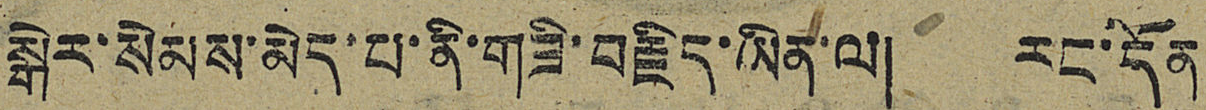སྒེར་སེམས་མེད་པ་ནི་གཟི་བརྗིད་ཡིན་ལ། རང་དོན
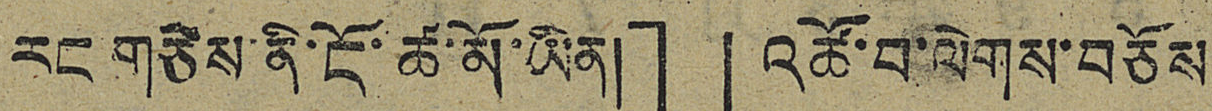རང་གཅེས་ནི་ངོ་ཚ་མོ་ཡིན།」「འཚོ་བ་ལེགས་བཅོས
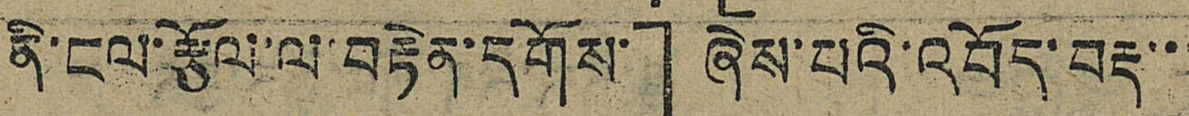ནི་ངལ་རྩོལ་ལ་བརྟེན་དགོས་」ཞེས་པའི་འབོད་བརྡ་་་
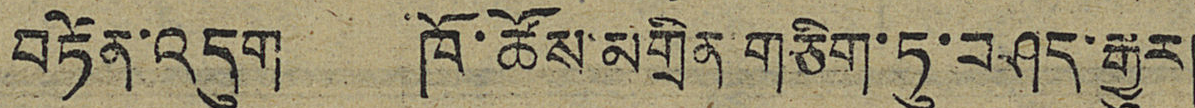བཏོན་འདུག ཁོ་ཚོས་མགྲིན་གཅིག་ཏུ་བཤད་རྒྱུར།
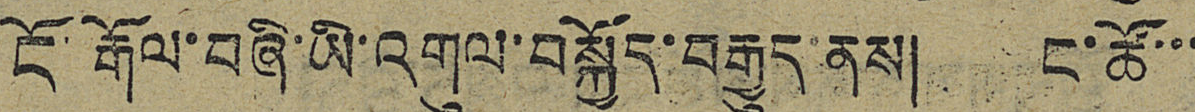ངོ་རྒོལ་བཞི་ཡི་འགུལ་བསྐྱོད་བརྒྱུད་ནས། ང་ཚོ་་་
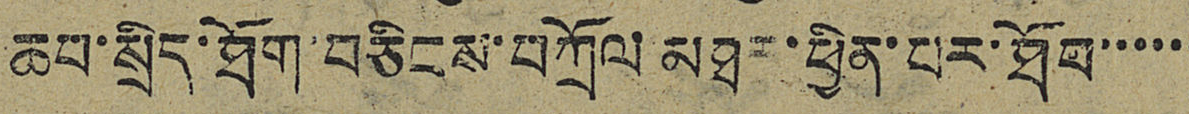ཆབ་སྲིད་ཐོག་བཅིངས་བཀྲོལ་མཐར་ཕྱིན་པར་ཐོབ་་་་་་
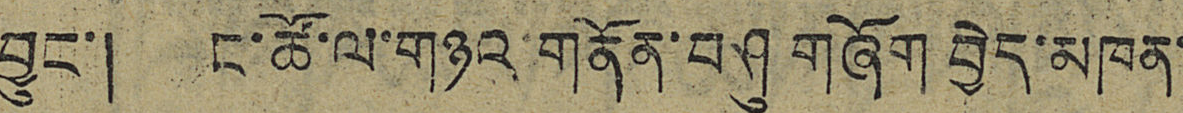བྱུང་། ང་ཚོ་ལ་གཉའ་གནོན་བཤུ གཞོག བྱེད་མཁན་
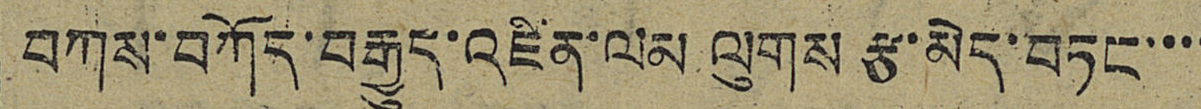བཀས་བཀོད་བརྒྱུད་འཛིན་ལམ ལུགས རྩ་མེད་བཏང་་་་
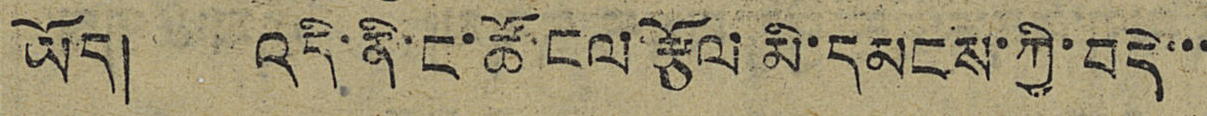ཡོད། འདི་ནི་ང་ཚོ་ངལ་རྩོལ མི་དམངས་ཀྱི་བདེ་་་
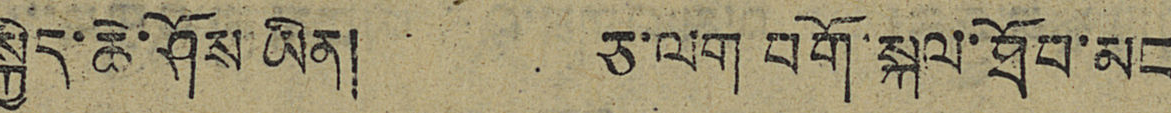སྐྱིད་ཆེ་ཤོས་ཡིན། ཅ་ལག བགོ་སྐལ་ཐོབ་མང
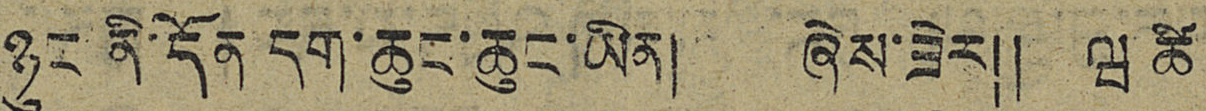ཉུང་ནི་དོན དག་ཆུང་ཆུང་ཡིན། ཞེས་ཟེར༎ ཝ ཚི་
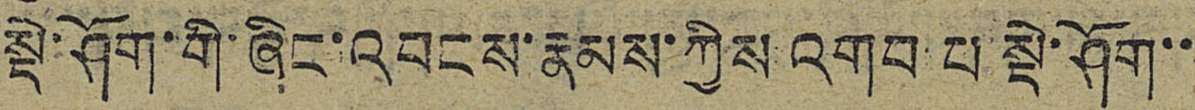སྡེ་ཤོག་གི་ཞིང་འབངས་རྣམས་ཀྱིས འགབ པ སྡེ་ཤོག་་
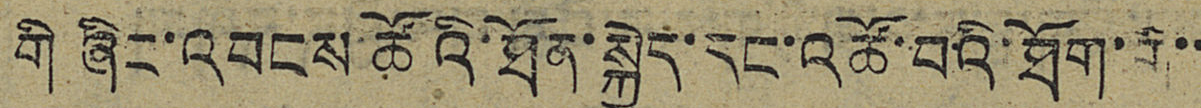གི ཞིང་འབངས་ཚོའི་ཐོན་སྐྱེད་དང་འཚོ་བའི་ཐོག་གི་་
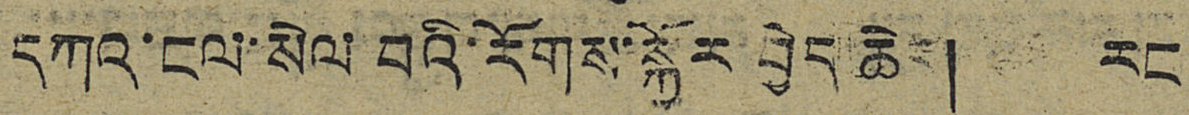དཀའ་ངལ་སེལ བའི་རོགས་སྐྱོར་བྱེད་ཆེར། རང
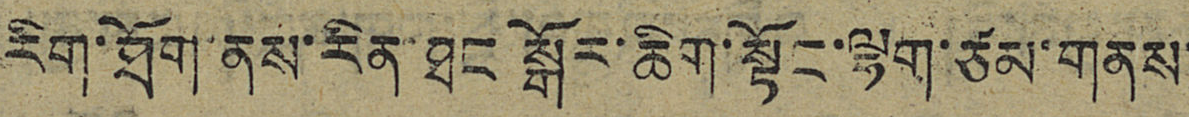རིག་ཐོག་ནས་རིན་ཐང་སྒོར་ཆིག་སྟོང་ལྷག་ཙམ་གནས་
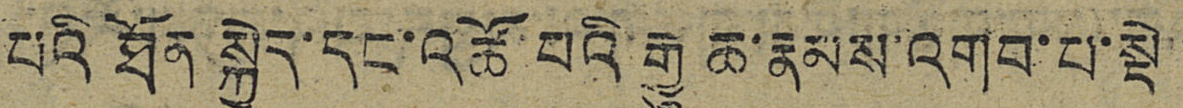པའི ཐོན སྐྱེད་དང་འཚོ་བའི་རྒྱུ ཆ་རྣམས་འགབ་པ་སྡེ་
